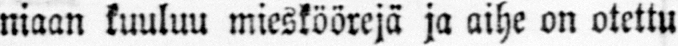niaan kuuluu miesköörejä ja aihe on otettu
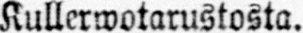Kullerwotarustosta.
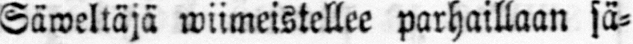Säweltäjä wiimeistellee parhaillaan sä-
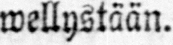wellystään.
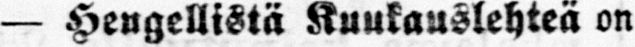— Hengellistä Kuukauslehteä on
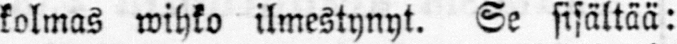kolmas wihko ilmestynyt. Se sisältää:
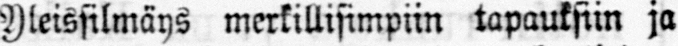Yleissilmäys merkillisimpiin tapauksiin ja
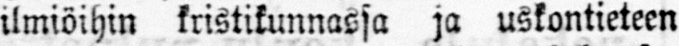ilmiöihin kristikunnassa ja uskontieteen
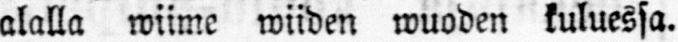alalla wiime wiiden wuoden kuluessa.
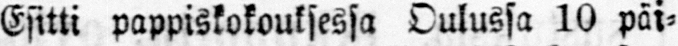Esitti pappiskokouksessa Oulussa 10 päi-
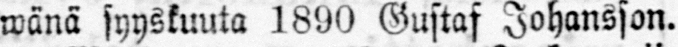wänä syyskuuta 1890 Gustaf Johansson.
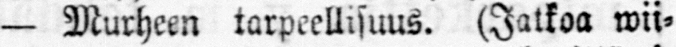— Murheen tarpeellisuus. (Jatkoa wii-
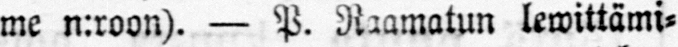me n:roon). — P. Raamatun lewittämi-
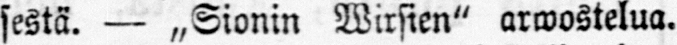sestä. — „Sionin Wirsien" arwostelua.
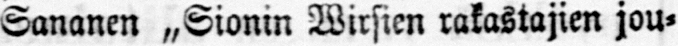Sananen „Sionin Wirsien rakastajien jou-
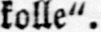kolle".
